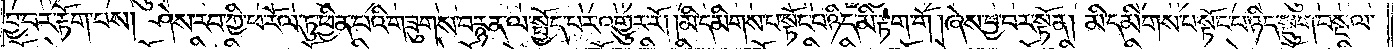བྱ་བར་རྟོག་པས། ཤེས་རབ་ཀྱི་ཕ་རོལ་ཏུ་ཕྱིན་པའི་གཟུགས་བརྙན་ལ་སྤྱོད་པར་འགྱུར་རོ། །མི་དམིགས་པ་སྟོང་པ་ཉིད་མི་རྟག་གོ །ཞེས་བྱ་བར་སྟོན། མི་དམིགས་པ་སྟོང་པ་ཉིད་སྡུག་བསྔལ་
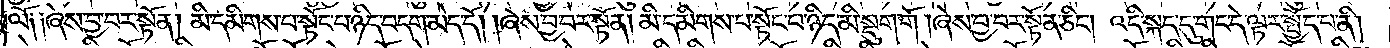ལོ༑ ༑ཞེས་བྱ་བར་སྟོན། མི་དམིགས་པ་སྟོང་པ་ཉིད་བདག་མེད་དོ། །ཞེས་བྱ་བར་སྟོན། མི་དམིགས་པ་སྟོང་པ་ཉིད་མི་སྡུག་གོ །ཞེས་བྱ་བར་སྟོན་ཅིང༌། འདི་སྐད་དུ་གང་དེ་ལྟར་སྤྱོད་པ་ནི།
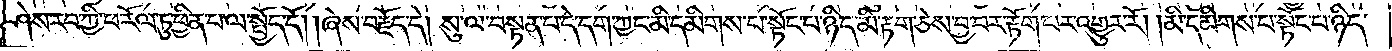ཤེས་རབ་ཀྱི་ཕ་རོལ་ཏུ་ཕྱིན་པ་ལ་སྤྱོད་དོ། །ཞེས་བརྗོད་དེ། སུ་ལ་བསྟན་པ་དེ་དག་ཀྱང་མི་དམིགས་པ་སྟོང་པ་ཉིད་མི་རྟག་ཅེས་བྱ་བར་རྟོག་པར་འགྱུར་རོ། །མི་དམིགས་པ་སྟོང་པ་ཉིད་
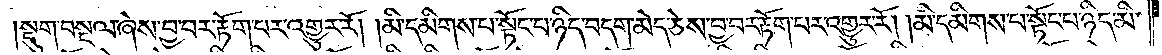སྡུག་བསྔལ་ཞེས་བྱ་བར་རྟོག་པར་འགྱུར་རོ། །མི་དམིགས་པ་སྟོང་པ་ཉིད་བདག་མེད་ཅེས་བྱ་བར་རྟོག་པར་འགྱུར་རོ། །མི་དམིགས་པ་སྟོང་པ་ཉིད་མི་
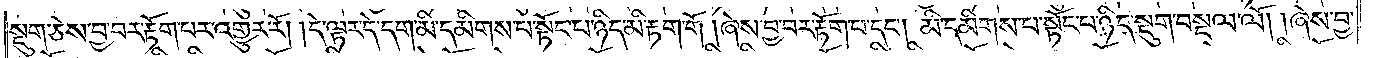སྡུག་ཅེས་བྱ་བར་རྟོག་པར་འགྱུར་རོ། །དེ་ལྟར་དེ་དག་མི་དམིགས་པ་སྟོང་པ་ཉིད་མི་རྟག་གོ །ཞེས་བྱ་བར་རྟོག་པ་དང༌། མི་དམིགས་པ་སྟོང་པ་ཉིད་སྡུག་བསྔལ་ལོ། །ཞེས་བྱ་
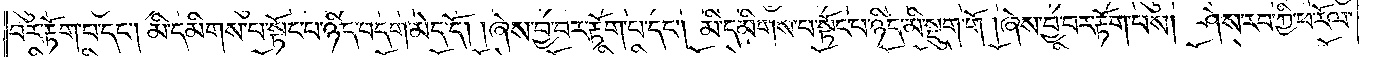བར་རྟོག་པ་དང༌། མི་དམིགས་པ་སྟོང་པ་ཉིད་བདག་མེད་དོ། །ཞེས་བྱ་བར་རྟོག་པ་དང༌། མི་དམིགས་པ་སྟོང་པ་ཉིད་མི་སྡུག་གོ །ཞེས་བྱ་བར་རྟོག་པས། ཤེས་རབ་ཀྱི་ཕ་རོལ་
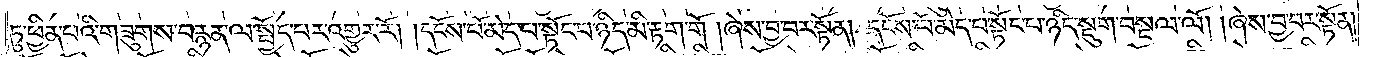ཏུ་ཕྱིན་པའི་གཟུགས་བརྙན་ལ་སྤྱོད་པར་འགྱུར་རོ། །དངོས་པོ་མེད་པ་སྟོང་པ་ཉིད་མི་རྟག་གོ །ཞེས་བྱ་བར་སྟོན། དངོས་པོ་མེད་པ་སྟོང་པ་ཉིད་སྡུག་བསྔལ་ལོ། །ཞེས་བྱ་བར་སྟོན།
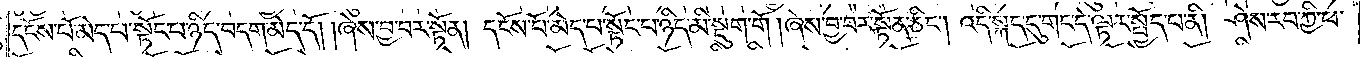དངོས་པོ་མེད་པ་སྟོང་པ་ཉིད་བདག་མེད་དོ། །ཞེས་བྱ་བར་སྟོན། དངོས་པོ་མེད་པ་སྟོང་པ་ཉིད་མི་སྡུག་གོ །ཞེས་བྱ་བར་སྟོན་ཅིང༌། འདི་སྐད་དུ་གང་དེ་ལྟར་སྤྱོད་པ་ནི། ཤེས་རབ་ཀྱི་ཕ་
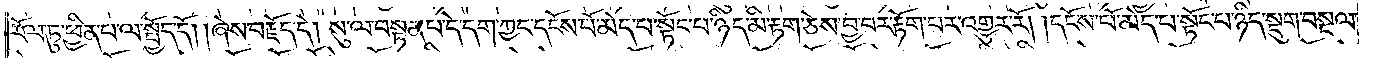རོལ་ཏུ་ཕྱིན་པ་ལ་སྤྱོད་དོ། །ཞེས་བརྗོད་དོ། སུ་ལ་བསྟན་པ་དེ་དག་ཀྱང་དངོས་པོ་མེད་པ་སྟོང་པ་ཉིད་མི་རྟག་ཅེས་བྱ་བར་རྟོག་པར་འགྱུར་རོ། །དངོས་པོ་མེད་པ་སྟོང་པ་ཉིད་སྡུག་བསྔལ་
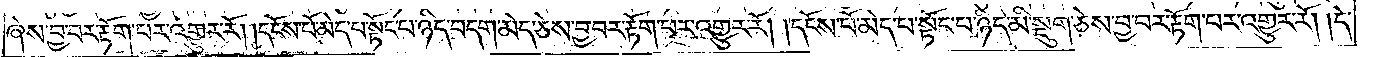ཞེས་བྱ་བར་རྟོག་པར་འགྱུར་རོ། །དངོས་པོ་མེད་པ་སྟོང་པ་ཉིད་བདག་མེད་ཅེས་བྱ་བར་རྟོག་པར་འགྱུར་རོ། །དངོས་པོ་མེད་པ་སྟོང་པ་ཉིད་མི་སྡུག་ཅེས་བྱ་བར་རྟོག་པར་འགྱུར་རོ། །དེ་
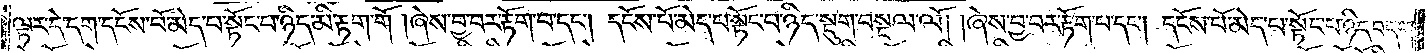ལྟར་དེ་དག་དངོས་པོ་མེད་པ་སྟོང་པ་ཉིད་མི་རྟག་གོ །ཞེས་བྱ་བར་རྟོག་པ་དང༌། དངོས་པོ་མེད་པ་སྟོང་པ་ཉིད་སྡུག་བསྔལ་ལོ། །ཞེས་བྱ་བར་རྟོག་པ་དང༌། དངོས་པོ་མེད་པ་སྟོང་པ་ཉིད་བདག་
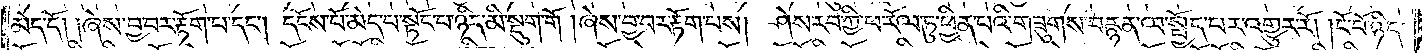མེད་དོ། །ཞེས་བྱ་བར་རྟོག་པ་དང༌། དངོས་པོ་མེད་པ་སྟོང་པ་ཉིད་མི་སྡུག་གོ །ཞེས་བྱ་བར་རྟོག་པས། ཤེས་རབ་ཀྱི་ཕ་རོལ་ཏུ་ཕྱིན་པའི་གཟུགས་བརྙན་ལ་སྤྱོད་པར་འགྱུར་རོ། །ངོ་བོ་ཉིད་
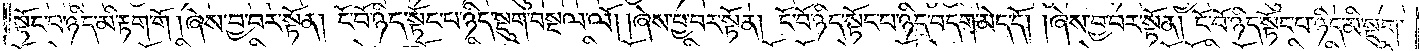སྟོང་པ་ཉིད་མི་རྟག་གོ །ཞེས་བྱ་བར་སྟོན། ངོ་བོ་ཉིད་སྟོང་པ་ཉིད་སྡུག་བསྔལ་ལོ། །ཞེས་བྱ་བར་སྟོན། ངོ་བོ་ཉིད་སྟོང་པ་ཉིད་བདག་མེད་དོ། །ཞེས་བྱ་བར་སྟོན། ངོ་བོ་ཉིད་སྟོང་པ་ཉིད་མི་སྡུག་
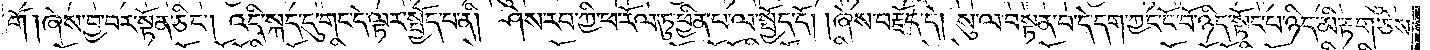གོ །ཞེས་བྱ་བར་སྟོན་ཅིང༌། འདི་སྐད་དུ་གང་དེ་ལྟར་སྤྱོད་པ་ནི། ཤེས་རབ་ཀྱི་ཕ་རོལ་ཏུ་ཕྱིན་པ་ལ་སྤྱོད་དོ། །ཞེས་བརྗོད་དེ། སུ་ལ་བསྟན་པ་དེ་དག་ཀྱང་ངོ་བོ་ཉིད་སྟོང་པ་ཉིད་མི་རྟག་ཅེས་
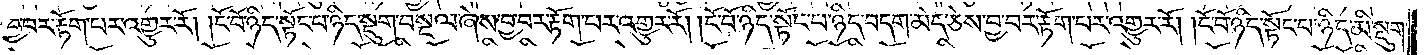བྱ་བར་རྟོག་པར་འགྱུར་རོ། །ངོ་བོ་ཉིད་སྟོང་པ་ཉིད་སྡུག་བསྔལ་ཞེས་བྱ་བར་རྟོག་པར་འགྱུར་རོ། །ངོ་བོ་ཉིད་སྟོང་པ་ཉིད་བདག་མེད་ཅེས་བྱ་བར་རྟོག་པར་འགྱུར་རོ། །ངོ་བོ་ཉིད་སྟོང་པ་ཉིད་མི་སྡུག་
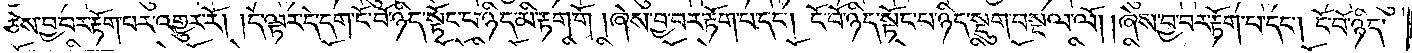ཅེས་བྱ་བར་རྟོག་པར་འགྱུར་རོ། །དེ་ལྟར་དེ་དག་ངོ་བོ་ཉིད་སྟོང་པ་ཉིད་མི་རྟག་གོ །ཞེས་བྱ་བར་རྟོག་པ་དང༌། ངོ་བོ་ཉིད་སྟོང་པ་ཉིད་སྡུག་བསྔལ་ལོ། །ཞེས་བྱ་བར་རྟོག་པ་དང༌། ངོ་བོ་ཉིད་
